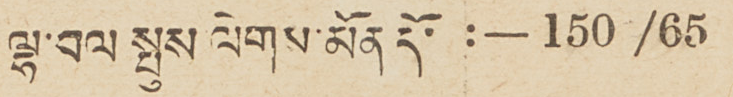ལྷ་བལ སྤུས ལེགས་མོན དོ་ :— 150 /65
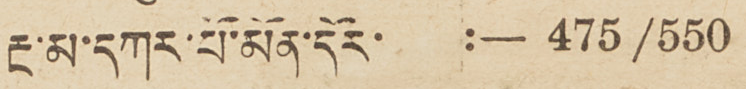རྔ་མ་དཀར་པོ་མོན་དོར་ :— 475 /550
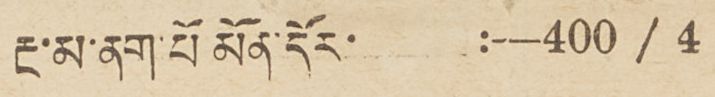རྔ་མ་ནག་པོ མོན་དོར་ :-—4OO / 4
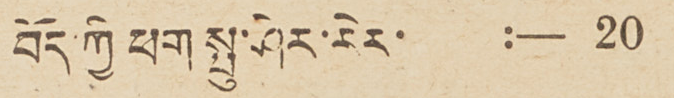བོད་ཀྱི ཕག སྤུ་ཤེར་རེར་ :— 20
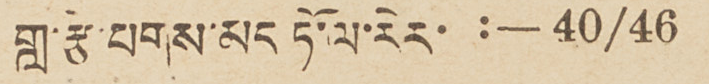གླ་རྩེ་པགས་མེད ཏོ་ལ་རེར་ :— 40/46
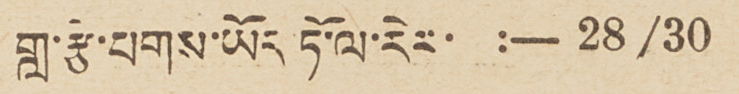གླ་རྩེ་པགས་ཡོད ཏོ་ལ་རེར་ :— 28 /30
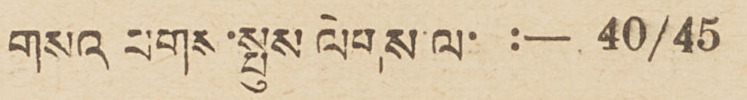གསའ པགས་སྤུས ལེགས་ལ་ :— 40/45
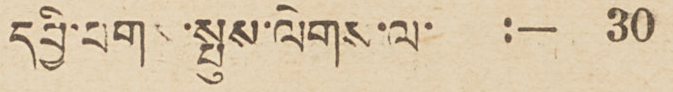དབྱི་པགས་སྤུས་ལེགས་ལ་   :—  30
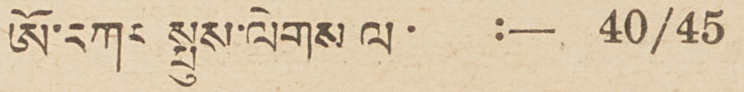ཨོ་དཀར་སྤུས་ལེགས ལ་    :— 4O/45
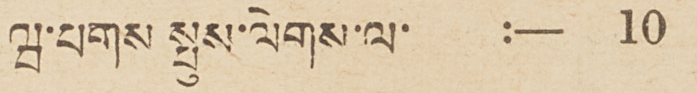ཝ་པགས སྤུས་ལེགས་ལ་    :— 1O
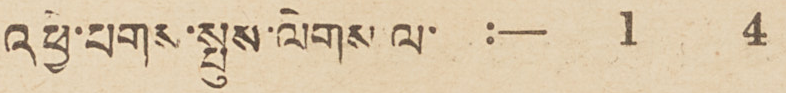འཕྱེ་པགས་སྤུས་ལེགས ལ་   :— 1        4
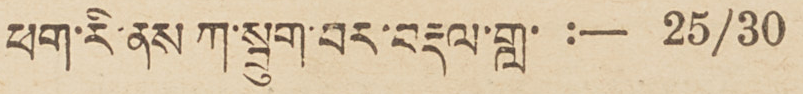ཕག་རི་ནས ཀ་སྦུག་བར་བརྡལ་གླ་ :— 25/30
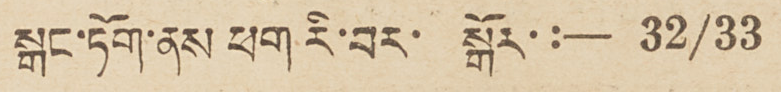སྒང་ཏོག་ནས ཕག རི་བར་ སྒོར་:— 32/33
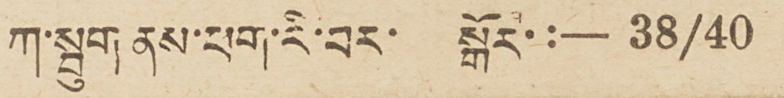ཀ་སྦུག ནས་ཕག་རི་བར་ སྒོར་ :— 38/40
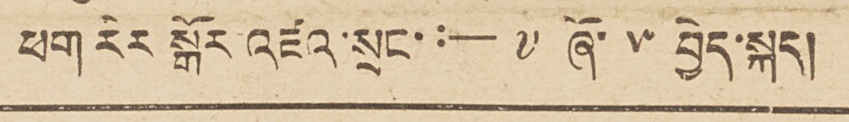ཕག རིར སྒོར་འཛའ་སྲང་:— ༧ ཞོ་ ༥ བྱེད་སྐད།
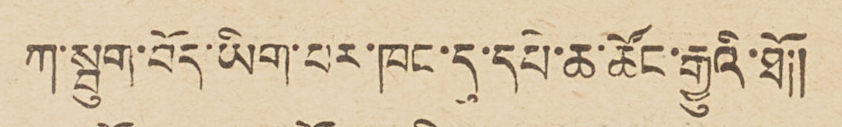ཀ་སྦུག་བོད་ཡིག་པར་ཁང་དུ་དཔེ་ཆ་ཚོང་རྒྱུའི་ཐོ།།
